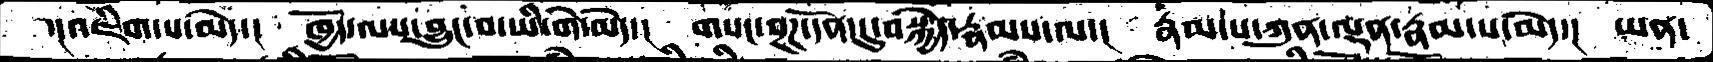་།འཇིག་པ་མེད་།  ཁྱོད་ལས་བྱུང་བ་ཡི་གེ་མེད་།  གསང་སྔཌ་དོན་དུ་བསྐྱེད་རྣམས་ལ་།  རྣམ་པ་ཀུན་ལྡན་རྣམ་པ་མེད་།  ཡན་
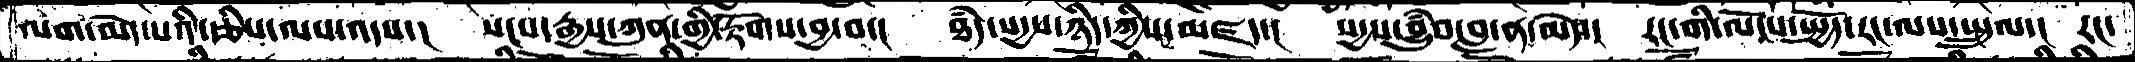ལག་མེད་པའི་རྩིས་ལས་འདས་།  སངས་རྒྱས་ཀུན་གྱི་རྟོགས་བྱ་བ་།  ཐཾད་སདྱས་ཉིད་ཀྱིས་མཛད་།  སདྱས་བྱུཾབ་བླ་ན་མེད་།  རང་གི་ལོངས་སྤྱོད་རང་ལས་སྤྲུལ་།  རང་
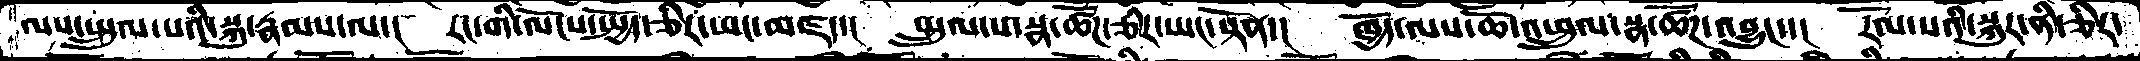ལས་སྤྲུལ་པའི་སྐུ་རྣམས་ལ་།  རང་གི་ལོངས་སྤྱོད་ཅིར་ཡང་མཛད་།  སྤྲུལ་པ་སྣ་ཚོཌ་ཅིར་ཡང་སྟོན་།  ཁྱོད་ལས་ཆོ་འཕྲུལ་སྣ་ཚོཌ་འབྱུང་་།  རོལ་པའི་སྐུར་ནི་ཅིར་
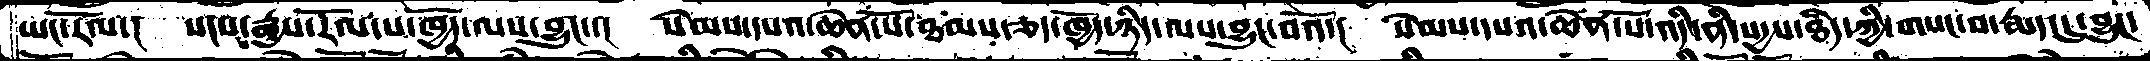ཡང་རོལ་།  སངས་རྒྱས་རོལ་པ་ཁྱོད་ལས་བྱུང་་།  སེམས་དཔའ་ཆེན་པོ་ཐམས་ཅད་ཁྱོད་ཉིད་ལས་བྱུང་བའོ་།  སེམས་དཔའ་ཆེན་པོ་འདི་ནི་སདྱས་ཐཾད་ཀྱི་གསང་བ་རྨད་དུ་བུང་
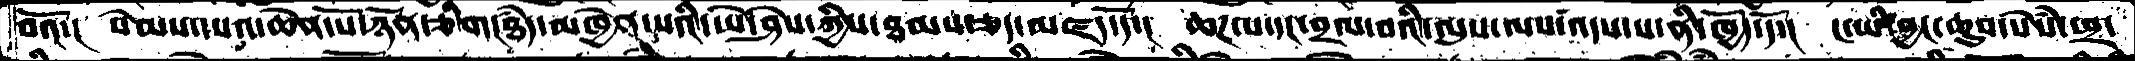བའོ་།  སེམས་དཔའ་ཆེན་པོ་ཉོན་ཅིག་ཐཾད་མཁྱེན་པའི་ཡེ་ཤེས་ཀྱིས་ཐམས་ཅད་མཛད་དོ་།  ཆཌ་པ་དང་བྲལ་བའི་ལུས་ལས་འདས་པ་ནི་ཁྱོད་དོ་།  ང་ཡི་བྱང་ཆུབ་སེསཾ་ཕྲ་
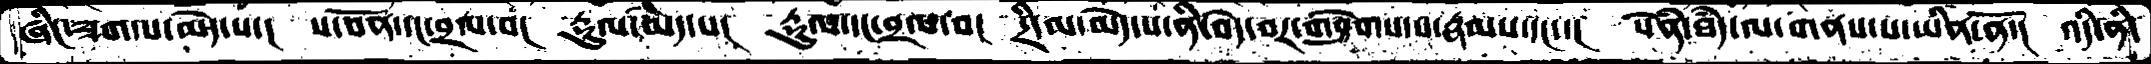ཞིང་ཟག་པ་མེད་པ་།  ས་བོན་དང་བྲལ་བ།  རྡུལ་མེད་པ་།  རྡུལ་དང་བྲལ་བ།  དྲི་མ་མེད་པ་ནི་བདེ་བར་གཤེགས་པ་རྣམས་དང་་།  སེནཾ་ཐཾད་ལ་གནས་པ་ཡིན་ནོ་།  འདི་ནི་
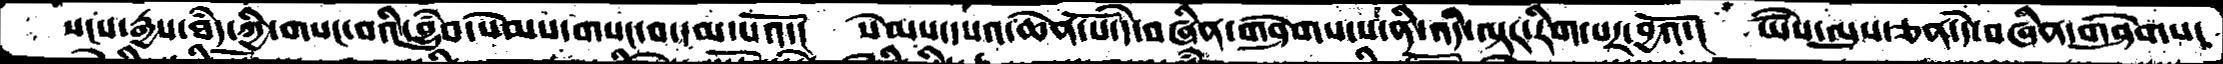སངས་རྒྱས་ཐཾད་ཀྱི་གསང་བའི་བྱུཾབ་སེམས་གསང་བ་དམ་པའོ་།  སེམས་དཔའ་ཆེན་པོ་དེ་བཞིན་གཤེགས་པ་ནི་འདི་ལྟར་རིག་པར་བྱའོ་།  ཡཻས་ལུས་ཅན་དེ་བཞིན་གཤེགས་
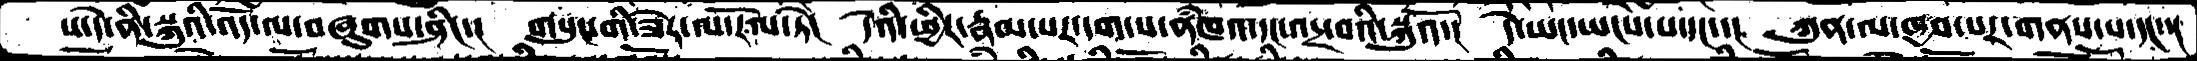པ་དེ་ནི་སྐུའི་འོད་ལ་བཞུགས་ཤིང་།  གསུང་གི་ཟེར་ལ་རོལ་ཏེ་།  དེའི་ཕྱིར་རྣམ་པར་དག་པ་ནཾཁའ་དང་འདྲ་བའི་སྐུའོ་།  དེ་ཡང་ཡངས་པ་དང་་།  ཀུན་ལ་ཁྱབ་པར་གནས་པ་དང་་།
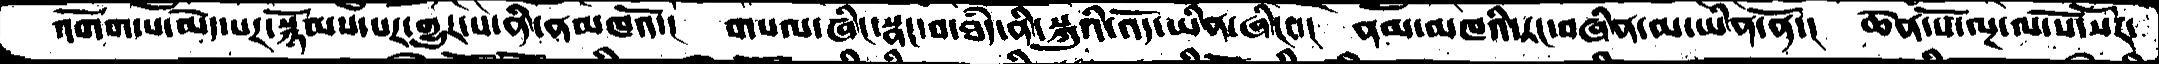འགོག་པ་མེད་པར་སྙོམས་པར་གྱུར་པ་ནི་ནམཁའོ་།  གསལ་ཞིང་སྣང་བ་ཐཾད་ནི་སྐུའི་འོད་ཡིན་ཞིང་་། ནམ་མཁའི་རང་བཞིན་མ་ཡིན་ནོ་།  ཆེན་པོ་ལྔ་ལ་སོ་སོར་
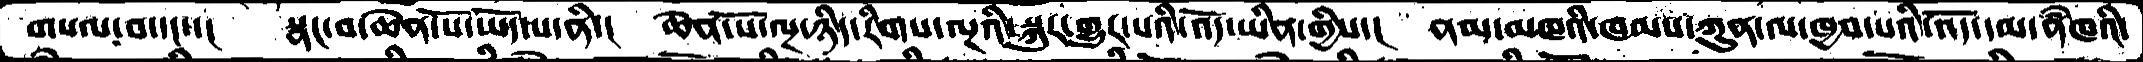གསལ་བ་དང་་།  སྣང་བ་ཆེན་པོ་ཡོད་པ་ནི་།  ཆེན་པོ་ལྔ་ཉིད་རིགས་ལྔའི་སྐུར་གྱུར་པའི་འདོ་ཡིན་གྱིས་།  ནམ་མཁའི་ཁམས་ཀུན་ཁྱབ་པའི་འོད་དམ་ནཾཁའི
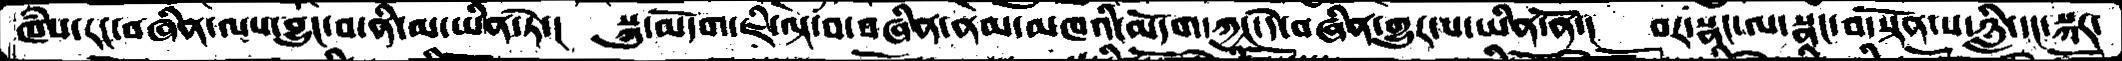ཁཾས་རང་བཞིན་ལས་བྱུང་བ་ནི་མ་ཡིན་ཏེ་།  སྐུ་མདོག་ཇི་ལྟ་བ་བཞིན་ནམ་མཁའི་མདོག་ཀྱང་དེ་བཞིན་གྱུར་པ་ཡིན་ནོ་།  བར་སྣང་ལ་སྣང་བ་སྟོན་པ་ཉླི་དང་སྐར་
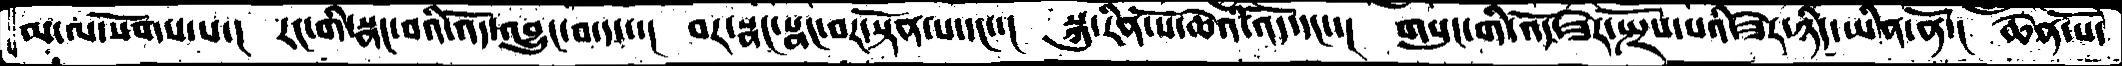མ་ལ་སོགས་པ་།  རང་གི་སྣང་བའི་འོད་འབྱུང་བ་དང་་།  བར་སྣང་སྣང་བར་སྟོན་པ་དང་་།  སྐུ་རིན་པོ་ཆེའི་འོད་དང་་།  གསུང་གི་འོད་ཟེར་སྤྲོས་པའི་ཟེེར་ཉིད་ཡིན་ནོ་། ཆེེན་པོ་
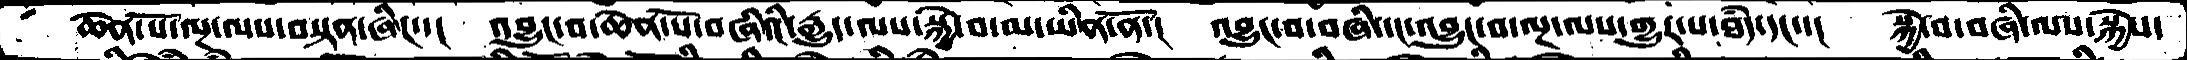ཆེན་པོ་ལྔ་ལས་བསྟན་ཞིང་།  འབྱུང་བ་ཆེན་པོ་བཞིའི་རྒྱུད་ལས་སྐྱེ་བ་མ་ཡིན་ནོ་།  འབྱུང་བ་བཞི་དང་འབྱུང་བ་ལྔ་ལས་གྱུར་པ་ཐཾད་དང་།  སྐྱེ་བ་བཞི་ལས་སྐྱེས་
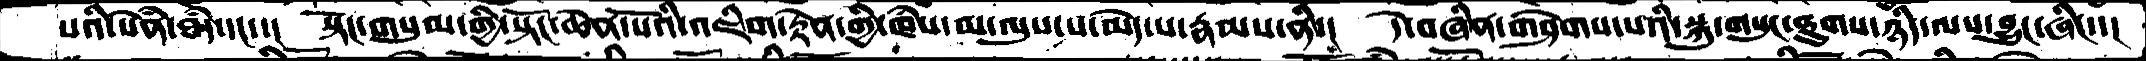པའི་སེནཾ་ཐཾད་དང་།  སྟོང་གསུམ་གྱི་སྟོང་ཆེན་པོའི་འཇིག་རྟེན་གྱི་ཁཾས་མ་ལུས་པ་མེད་པ་རྣམས་ནི་།  དེ་བཞིན་གཤེགས་པའི་སྐུ་གསུང་ཐུགས་ཉིད་ལས་བྱུང་ཞིང་།
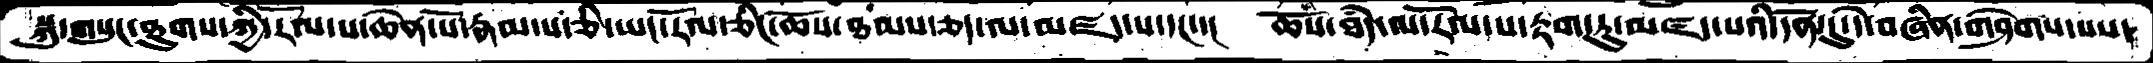སྐུ་གསུང་ཐུགས་ཀྱི་རོལ་པ་ཆེན་པོ་རྣམ་པ་ཅི་ཡང་རོལ་ཅིང་ཆོས་ཐམས་ཅད་ལ་མཛད་པ་དང་།  ཆོས་ཐཾད་ལ་རོལ་པ་རྟག་ཏུ་མཛད་པའི་དོན་དུ་དེ་བཞིན་གཤེགས་པས་
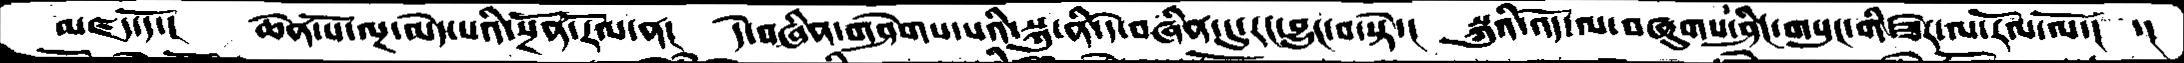མཛད་དོ་།  ཆེན་པོ་ལྔ་མེད་པའི་སྔོན་རོལ་ན་།  དེ་བཞིན་གཤེགས་པའི་སྐུ་ནི་དེ་བཞིན་དུ་རང་བྱུང་བ་སྟེ་།  སྐུའི་འོད་ལ་བཞུགས་ཤིང་གསུང་གི་ཟེར་ལ་རོལ་ལོ་།  ་།
